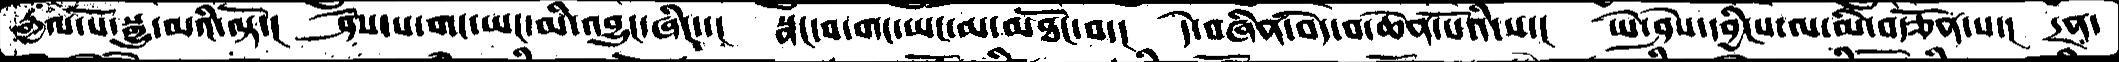རྒྱལ་པོ་སྒྱུ་མའི་ལྟོ་།  ཤེས་པ་གང་ཡང་མི་འབྱུང་ཞིང་་།  སྣང་བ་གང་ཡང་མ་མཐོང་བ་།  དེ་བཞིན་བདེ་བ་ཆེན་པོའི་ས་།  ཡེ་ཤེས་དབྱིངས་ལ་མི་བརྩོན་པ་།  དྲན་
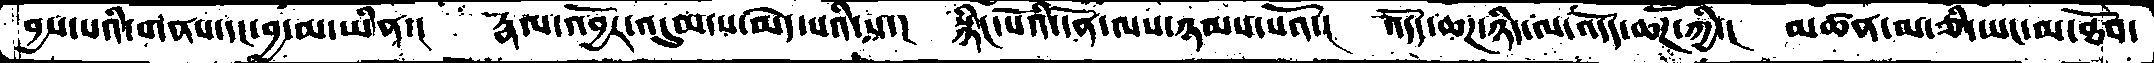བྱས་པའི་གནས་དང་བྱ་མ་ཡིན་།  རྣལ་འབྱོར་འདུམ་པ་མེད་པའི་ས་།  སྙིང་པོའི་དོན་ལས་ཉམས་པའོ་།  འདོད་ཆཌ་ཉིད་ལ་འདོད་ཆཌ་ཀྱི་།  མཚན་ལ་ཅི་ཡང་མ་ཐོབ་
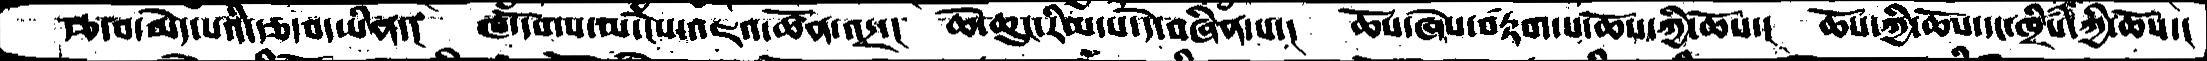རྩ་བ་མེད་པའི་རྩ་བ་ཡིན་།  ཁ་དོགས་མ་ངེས་འཇའ་ཚོན་འདྲ་།  ཆེ་ཆུང་རིམ་པ་དེ་བཞིན་པ་།  ཆོས་ཞེས་བརྟག་པ་ཆོས་ཀྱི་ཆོས་།  ཆོས་ཀྱི་ཆོས་དང་ཁྲིཾས་ཀྱི་ཆོས་།
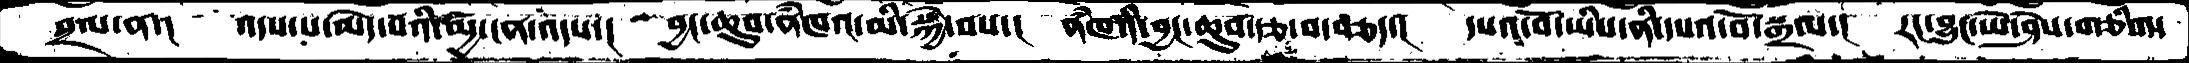བྲལ་ན་།  འདས་པ་མེད་པའི་མྱ་ངན་འདས་།  བྱང་ཆུབ་ནཾཁའ་མི་སྐྱེ་བས་།  ནཾཁའི་བྱང་ཆུབ་རྩ་བ་བཅད་།  དཔའ་བོ་ཡིས་ནི་དཔའ་བོ་སྒྲལ་།  རང་བྱུང་ཡེ་ཤེས་གཅིག་
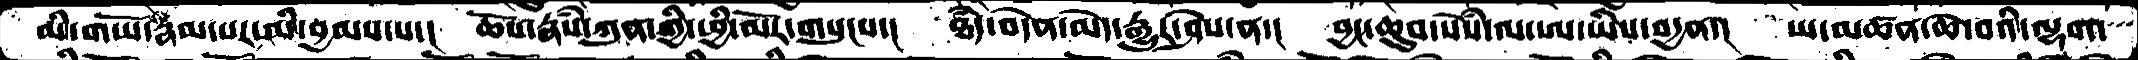མི་གཡོ་རྣམ་པར་མི་བྱམས་པ་།  ཆོས་རྣཾས་ཀུན་གྱི་ཕྱི་མོར་གསུངས་།  ཐཾད་བདེན་མེད་རྒྱུར་ཤེས་ན་།  བྱང་ཆུབ་སེཾས་ལ་ཨ་ཡིས་བདྱན་།  ཡ་མཚན་ཆེ་བའི་ལྷག་
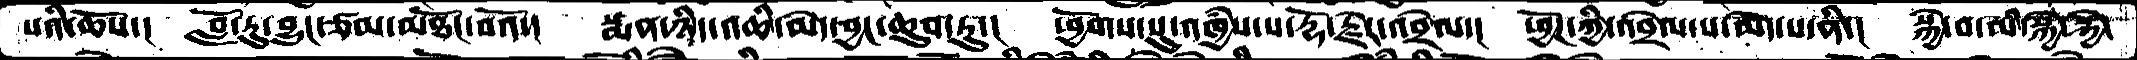པའི་ཆོས་།  བློ་རུ་བྱུང་ཙམ་མཐོང་བའོ་།  སྨན་ཉིད་འཆི་མེད་བྱང་ཆུབ་ཏུ་།  ཕྱོགས་སུ་འཁྱཾས་པ་རྡོ་རྗེར་འབྲེལ་།  ཕྱོཌ་ཀྱི་འབྲེལ་པ་མེད་པ་ནི་།  སྐྱེ་བ་མི་སྐྱེ་སྐྱེ་
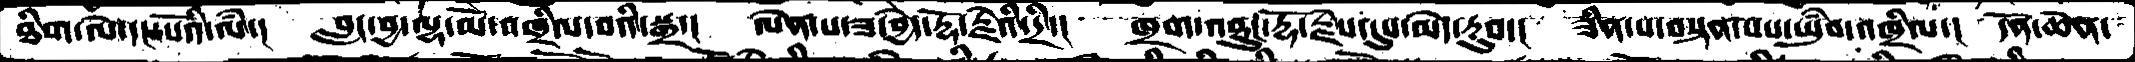ཐིག་ལེ་དང་པོའི་ལཾ་།  བླང་བྱ་ལྷ་མོ་འཁྲིལ་བའི་སྒྲ་།  ལེན་པ་ཟ་བྱེད་རྡོ་རྗེ་དྲི་།  ཁྲག་འཐུང་རྡོ་རྗེས་དུས་མེད་རུབ་།  ཟིན་པ་བསྟན་པས་ཡུཾབ་འཁྲིལ་།  དོན་ཆེན་
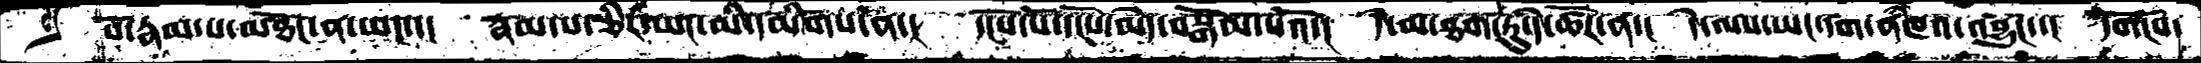པོ་རྣམ་པ་མཐོང་ན་ཡང་་།  རྣམ་པ་ཅིར་ཡང་མི་དམིགས་ན་།  དངོས་པོ་དངོས་མེད་བསྒོམ་པའོ་།  དེ་མ་ཐག་ཏུ་དེ་ཚོར་ན་།  དེ་ལས་ཡང་དག་ནཾཁའ་འབྱུང་་། དགོངས་
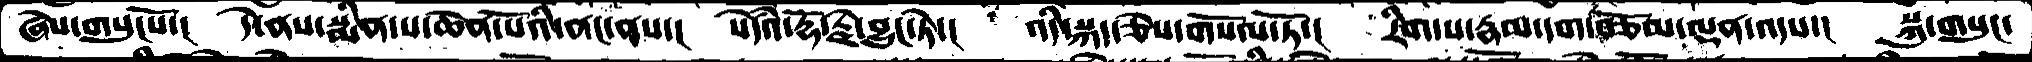ཞེས་གསུངསོ་།  དེ་ནས་སྨིན་པ་ཆེན་པོའི་ནང་ནས་།  སེཾདའ་རྡོ་རྗེ་བྱུང་ཏེ་།  འདི་སྐད་ཅེས་གསོལ་ཏོ་།  རིག་པ་རྣམ་དག་བཅོམ་ལྡན་འདས་།  སྐུ་གསུང་
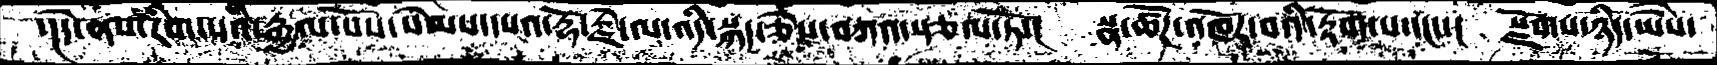་།དེ་ནས་་རིག་པའི་རྒྱལ་པོས་སེམས་དཔའ་རྡོ་རྗེ་ལ་འདི་སྐད་ཅེས་བཀའ་སྩལ་ཏོ་།  སྣ་ཚོཌ་འའཁོར་བའི་རྟོག་པ་དང་་།  སྫོགས་ཉིད་ཡཻས་
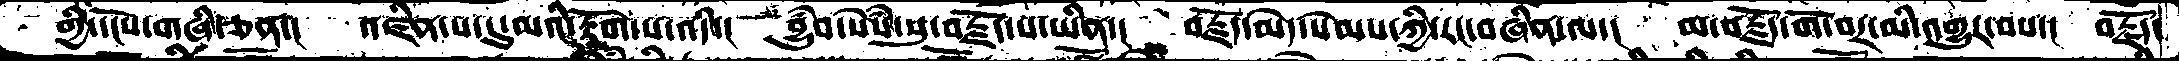གྱི་དངོས་གཞི་ཅན་།    འཛིན་པ་དུ་མའི་རྟོག་པ་འདི་།  བྱུཾབ་སེཾས་སུ་བརྗོད་པ་ཡིན་།  བརྗོད་མེད་སེམས་ཀྱི་རང་བཞིན་ལ་།  མ་བརྗོད་གོ་བར་མི་འགྱུར་བས་།  བརྗོད་
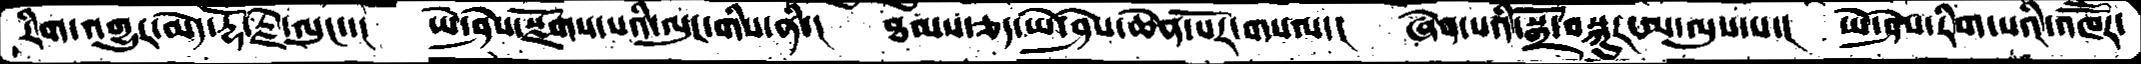རིག་འགྱུར་མེད་རྡོ་རྗེ་ལུང་་།  ཡེ་ཤེས་སྫོགས་པའི་ལུང་གིས་ནི་།  ཐམས་ཅད་ཡེ་ཤེས་ཆེན་པོར་གསལ་།  ཞེན་པའི་སྒྲོ་བསྐུར་མ་ལུས་པ་།  ཡེ་ཤེས་རིག་པའི་འཁཽར་
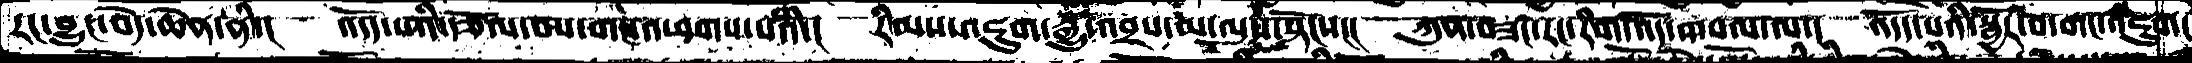རང་་བྱུང་བདེ་ཆེན་ནི་།  འདོད་པའི་རྩོལ་བས་གང་འཕགས་པའི་།  རིམས་འཇུག་རྒྱུ་འབྲས་མ་ལུས་སྟོངས་།  ཀུན་བཟང་རང་རིག་འོད་གསལ་ལ་།  འདོད་པའི་སྦྱོར་བ་གང་འཇུག་
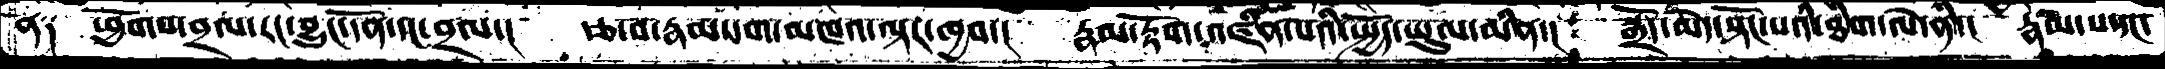ན༑  ཕྱོགས་བྲལ་རང་བྱུང་དོན་དང་བྲལ་།  རྩ་བ་རྣམ་དག་མཁའ་ལྟར་ཁྱབ་།  རྣམ་རྟོག་འཛིན་པའི་སྤྱོད་ཡུལ་མིན་།  སྒྲོད་མེད་སྟོང་པའི་ཐིག་ལེ་ནི་།  རྣམ་པ་དང་
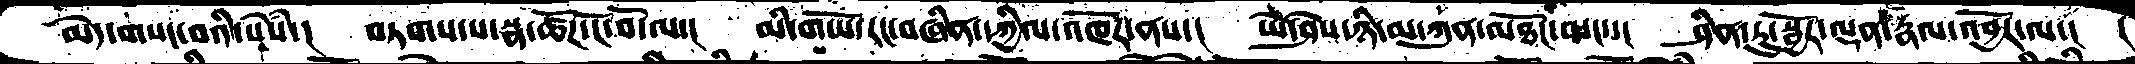མེད་གསང་བའི་སེསཾ་།  བཏགས་པ་སྣ་ཚོཌ་ངོ་བོ་ལ་།  མི་གཡོ་རང་བཞིན་དཀྱིལ་འཁོར་ནས་།  ཡེ་ཤེས་ཉི་མ་ཀུན་མཐོང་མང་་།  ཤིན་ཏུ་སྦྱོར་ལྡན་རྣལ་འབྱོར་ལ་།   །
